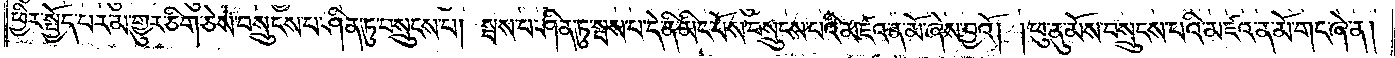ཕྱིར་སྤྱོད་པར་མ་གྱུར་ཅིག་ཅེས་བསྲུངས་པ་ཤིན་ཏུ་བསྲུངས་པ། སྦས་པ་ཤིན་ཏུ་སྦས་པ་དེ་ནི་མིང་པོས་བསྲུངས་པའི་མཛའ་ན་མོ་ཞེས་བྱའོ། །ཕུ་ནུ་མོས་བསྲུངས་པའི་མཛའ་ན་མོ་གང་ཞེ་ན།
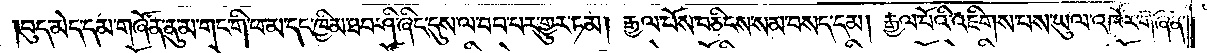།བུད་མེད་དམ་གཞོན་ནུ་མ་གང་གི་ཕ་མ་དང་ཁྱིམ་ཐབ་ཤི་ཞིང་དུས་ལ་བབ་པར་གྱུར་ཏམ། རྒྱལ་པོས་བཅིངས་སམ་བསད་དམ། རྒྱལ་པོའི་འཇིགས་པས་ཡུལ་འཁོར་གཞན་
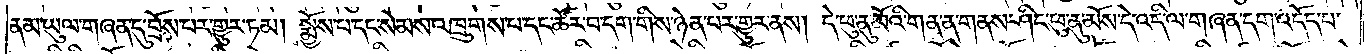ནམ་ཡུལ་གཞན་དུ་བྲོས་པར་གྱུར་ཏམ། སྨྱོས་པ་དང་སེམས་འཁྲུགས་པ་དང་ཚོར་བ་དག་གིས་ཉེན་པར་གྱུར་ནས། དེ་ཕུ་ནུ་མོའི་གན་ན་གནས་ཤིང་ཕུ་ནུ་མོས་དེ་འདི་ལ་གཞན་དག་འདོད་པ་
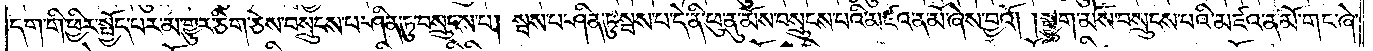དག་གི་ཕྱིར་སྤྱོད་པར་མ་གྱུར་ཅིག་ཅེས་བསྲུངས་པ་ཤིན་ཏུ་བསྲུངས་པ། སྦས་པ་ཤིན་ཏུ་སྦས་པ་དེ་ནི་ཕུ་ནུ་མོས་བསྲུངས་པའི་མཛའ་ན་མོ་ཞེས་བྱའོ། །སྒྱུག་མོས་བསྲུངས་པའི་མཛའ་ན་མོ་གང་ཞེ་
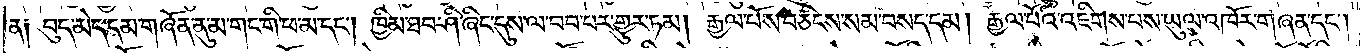ན༑ བུད་མེད་དམ་གཞོན་ནུ་མ་གང་གི་ཕ་མ་དང༌། ཁྱིམ་ཐབ་ཤི་ཞིང་དུས་ལ་བབ་པར་གྱུར་ཏམ། རྒྱལ་པོས་བཅིངས་སམ་བསད་དམ། རྒྱལ་པོའི་འཇིགས་པས་ཡུལ་འཁོར་གཞན་དང༌།
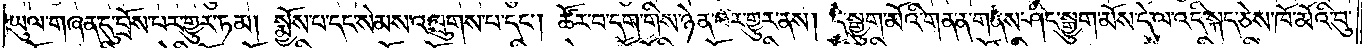ཡུལ་གཞན་དུ་བྲོས་པར་གྱུར་ཏམ། སྨྱོས་པ་དང་སེམས་འཁྲུགས་པ་དང༌། ཚོར་བ་དག་གིས་ཉེན་པར་གྱུར་ནས། དེ་སྒྱུག་མོའི་གན་ན་གནས་ཤིང་སྒྱུག་མོས་དེ་ལ་འདི་སྐད་ཅེས་ཁོ་མོའི་བུ་
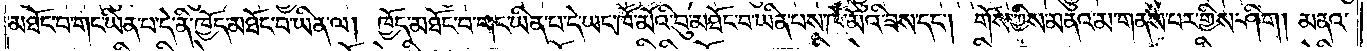མཐོང་བ་གང་ཡིན་པ་དེ་ནི་ཁྱོད་མཐོང་བ་ཡིན་ལ། ཁྱོད་མཐོང་བ་གང་ཡིན་པ་དེ་ཡང་ཁོ་མོའི་བུ་མཐོང་བ་ཡིན་པས་ཁོ་མོའི་ཟས་དང༌། གོས་ཀྱིས་མནའ་མ་གནས་པར་གྱིས་ཤིག། མནའ་
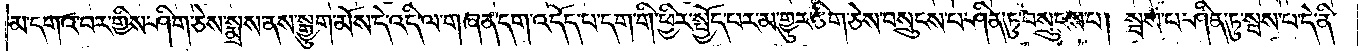མ་དགའ་བར་གྱིས་ཤིག་ཅེས་སྨྲས་ནས་སྒྱུག་མོས་དེ་འདི་ལ་གཞན་དག་འདོད་པ་དག་གི་ཕྱིར་སྤྱོད་པར་མ་གྱུར་ཅིག་ཅེས་བསྲུངས་པ་ཤིན་ཏུ་བསྲུངས་པ། སྦས་པ་ཤིན་ཏུ་སྦས་པ་དེ་ནི་
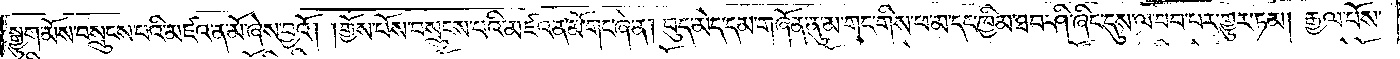སྒྱུག་མོས་བསྲུངས་པའི་མཛའ་ན་མོ་ཞེས་བྱའོ། །གྱོས་པོས་བསྲུངས་པའི་མཛའ་ན་མོ་གང་ཞེ་ན། བུད་མེད་དམ་གཞོན་ནུ་མ་གང་གིས་ཕ་མ་དང་ཁྱིམ་ཐབ་ཤི་ཞིང་དུས་ལ་བབ་པར་གྱུར་ཏམ། རྒྱལ་པོས་
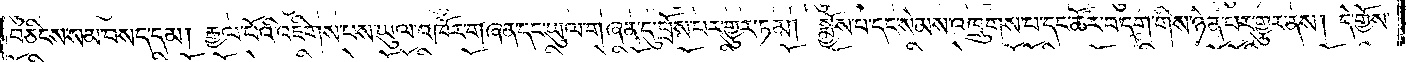བཅིངས་སམ་བསད་དམ། རྒྱལ་པོའི་འཇིགས་པས་ཡུལ་འཁོར་གཞན་དང་ཡུལ་གཞན་དུ་བྲོས་པར་གྱུར་ཏམ། སྨྱོས་པ་དང་སེམས་འཁྲུགས་པ་དང་ཚོར་བ་དག་གིས་ཉེན་པར་གྱུར་ནས། དེ་གྱོས་
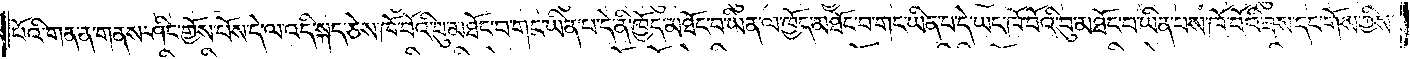པོའི་གན་ན་གནས་ཤིང་གྱོས་པོས་དེ་ལ་འདི་སྐད་ཅེས་ཁོ་བོའི་བུ་མཐོང་བ་གང་ཡིན་པ་དེ་ནི་ཁྱོད་མཐོང་བ་ཡིན་ལ་ཁྱོད་མཐོང་བ་གང་ཡིན་པ་དེ་ཡང་ཁོ་བོའི་བུ་མཐོང་བ་ཡིན་པས་ཁོ་བོའི་ཟས་དང་གོས་ཀྱིས་
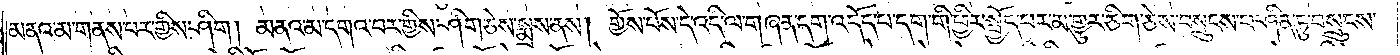མནའ་མ་གནས་པར་གྱིས་ཤིག །མནའ་མ་དགའ་བར་གྱིས་ཤིག་ཅེས་སྨྲས་ནས། གྱོས་པོས་དེ་འདི་ལ་གཞན་དག་འདོད་པ་དག་གི་ཕྱིར་སྤྱོད་པར་མ་གྱུར་ཅིག་ཅེས་བསྲུངས་པ་ཤིན་ཏུ་བསྲུངས་
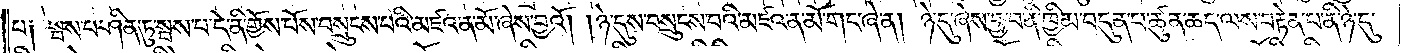པ༑ སྦས་པ་ཤིན་ཏུ་སྦས་པ་དེ་ནི་གྱོས་པོས་བསྲུངས་པའི་མཛའ་ན་མོ་ཞེས་བྱའོ། །ཉེ་དུས་བསྲུངས་པའི་མཛའ་ན་མོ་གང་ཞེ་ན། ཉེ་དུ་ཞེས་བྱ་བ་ནི་ཁྱིམ་བདུན་པ་ཚུན་ཆད་ལས་བརྟེན་པ་ནི་ཉེ་དུ་
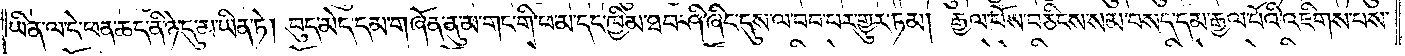ཡིན་ལ་དེ་ཕན་ཆད་ནི་ཉེ་དུ་མ་ཡིན་ཏེ། བུད་མེད་དམ་གཞོན་ནུ་མ་གང་གི་ཕ་མ་དང་ཁྱིམ་ཐབ་ཤི་ཞིང་དུས་ལ་བབ་པར་གྱུར་ཏམ། རྒྱལ་པོས་བཅིངས་སམ་བསད་དམ་རྒྱལ་པོའི་འཇིགས་པས་
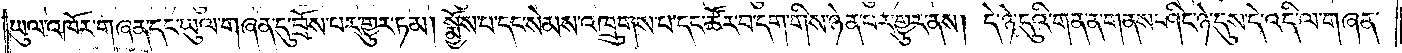ཡུལ་འཁོར་གཞན་དང་ཡུལ་གཞན་དུ་བྲོས་པར་གྱུར་ཏམ། སྨྱོས་པ་དང་སེམས་འཁྲུགས་པ་དང་ཆར་བ་དག་གིས་ཉེན་པར་གྱུར་ནས། དེ་ཉེ་དུའི་གན་ན་གནས་ཤིང་ཉེ་དུས་དེ་འདི་ལ་གཞན་
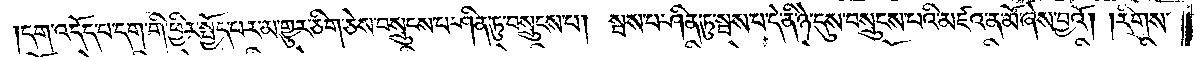དག་འདོད་པ་དག་གི་ཕྱིར་སྤྱོད་པར་མ་གྱུར་ཅིག་ཅེས་བསྲུངས་པ་ཤིན་ཏུ་བསྲུངས་པ། སྦས་པ་ཤིན་ཏུ་སྦས་པ་དེ་ནི་ཉེ་དུས་བསྲུངས་པའི་མཛའ་ན་མོ་ཞེས་བྱའོ། ། རིགས་
